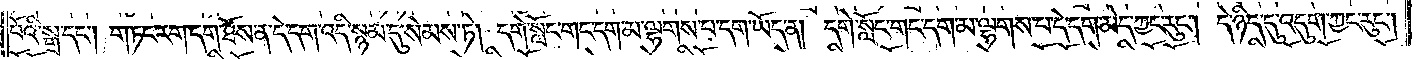པོའི་སྒྲ་དང༌། གཏང་རག་དག་ཐོས་ན་དེ་དག་འདི་སྙམ་དུ་སེམས་ཏེ། དགེ་སློང་གང་དག་མ་ལྷགས་པ་དག་ཡོད་ན། དགེ་སློང་གང་དག་མ་ལྷགས་པ་དེ་དག་མེད་ཀྱང་རུང༌། དེ་ཉིད་དུ་འདུག་ཀྱང་རུང༌།
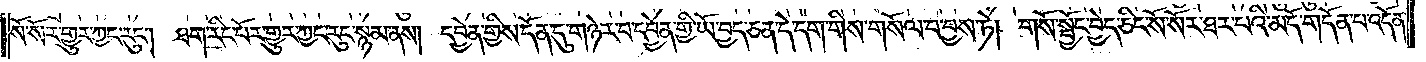སོ་སོར་གྱུར་ཀྱང་རུང༌། ཐག་རིང་པོར་གྱུར་ཀྱང་རུང་སྙམ་ནས། དབྱེན་གྱིས་དོན་དུ་གཉེར་བ་དབྱེན་གྱི་ཡོ་བྱད་ཅན་དེ་དག་གིས་གསོལ་བ་བྱས་ཏེ། གསོ་སྦྱོང་བྱེད་ཅིང་སོ་སོར་ཐར་པའི་མདོ་གདོན་པ་འདོན་
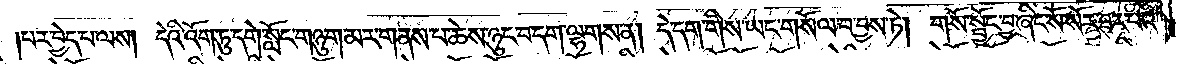པར་བྱེད་པ་ལས། དེའི་འོག་ཏུ་དགེ་སློང་གཉུག་མར་གནས་པ་ཆེས་ཉུང་བ་དག་ལྷགས་ན། དེ་དག་གིས་ཡང་གསོལ་བ་བྱས་ཏེ། གསོ་སྦྱོང་བྱ་ཞིང་སོ་སོར་ཐར་པའི་
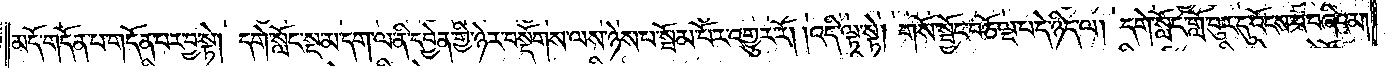མདོ་གདོན་པ་གདོན་པར་བྱ་སྟེ། དགེ་སློང་སྔ་མ་དག་ལ་ནི་དབྱེན་གྱི་ཉེར་བསྡོགས་ལས་ཉེས་པ་སྦོམ་པོར་འགྱུར་རོ། །འདི་ལྟ་སྟེ། གསོ་སྦྱོང་བཅོ་ལྔ་པ་དེ་ཉིད་ལ། དགེ་སློང་གློ་བུར་དུ་འོངས་པ་བཞིའམ།
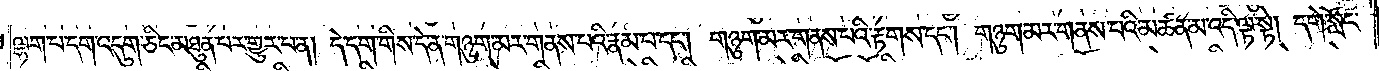ལྷག་པ་དག་འདུག་ཅིང་མཐུན་པར་གྱུར་པ་ན། དེ་དག་གིས་དེ་ན་གཉུག་མར་གནས་པའི་རྣམ་པ་དང༌། གཉུག་མར་གནས་པའི་རྟགས་དང༌། གཉུག་མར་གནས་པའི་མཚན་མ་འདི་ལྟ་སྟེ། དགེ་སློང་
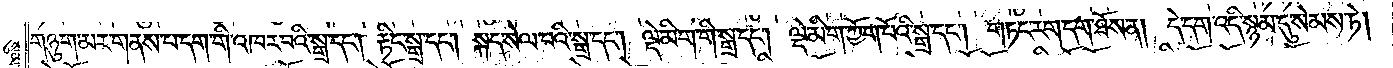གཉུག་མར་གནས་པ་དག་གི་འཁར་བའི་སྒྲ་དང༌། རྟིང་སྒྲ་དང༌། སྐད་སེལ་བའི་སྒྲ་དང༌། ལྡེ་མིག་གི་སྒྲ་དང༌། ལྡེ་མིག་ཀྱོག་པོའི་སྒྲ་དང༌། གཏང་རག་དག་ཐོས་ན། དེ་དག་འདི་སྙམ་དུ་སེམས་ཏེ།
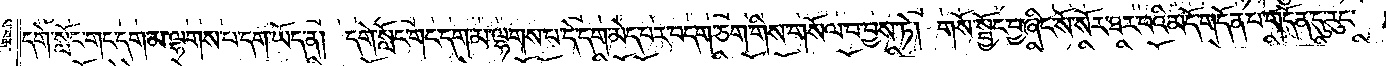དགེ་སློང་གང་དག་མ་ལྷགས་པ་དག་ཡོད་ན། དགེ་སློང་གང་དག་མ་ལྷགས་པ་དེ་དག་མེད་པར་བདག་ཅག་གིས་གསོལ་བ་བྱས་ཏེ། གསོ་སྦྱོང་བྱ་ཞིང་སོ་སོར་ཐར་པའི་མདོ་གདོན་པ་གདོན་དུ་རུང་
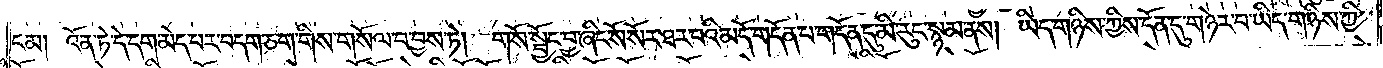ངམ། འོན་ཏེ་དེ་དག་མེད་པར་བདག་ཅག་གིས་གསོལ་བ་བྱས་ཏེ། གསོ་སྦྱོང་བྱ་ཞིང་སོ་སོར་ཐར་པའི་མདོ་གདོན་པ་གདོན་དུ་མི་རུང་སྙམ་ནས། ཡིད་གཉིས་ཀྱིས་དོན་དུ་གཉེར་བ་ཡིད་གཉིས་ཀྱི་
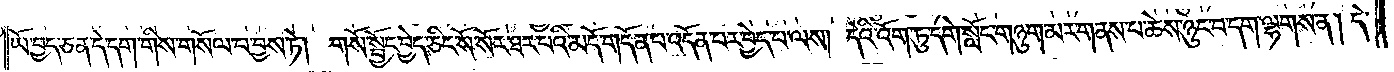ཡོ་བྱད་ཅན་དེ་དག་གིས་གསོལ་བ་བྱས་ཏེ། གསོ་སྦྱོང་བྱེད་ཅིང་སོ་སོར་ཐར་པའི་མདོ་གདོན་པ་འདོན་པར་བྱེད་པ་ལས། དེའི་འོག་ཏུ་དགེ་སློང་གཉུག་མར་གནས་པ་ཆེས་ཉུང་བ་དག་ལྷགས་ན། དེ་
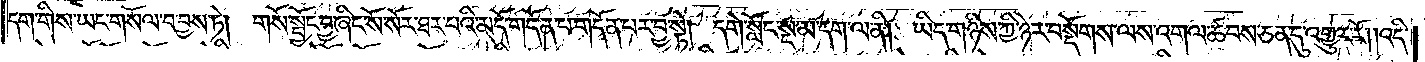དག་གིས་ཡང་གསོལ་བ་བྱས་ཏེ། གསོ་སྦྱོང་བྱ་ཞིང་སོ་སོར་ཐར་པའི་མདོ་གདོན་པ་གདོན་པར་བྱ་སྟེ། དགེ་སློང་སྔ་མ་དག་ལ་ནི། ཡིད་གཉིས་ཀྱི་ཉེར་བསྡོགས་ལས་འགལ་ཚབས་ཅན་དུ་འགྱུར་རོ། །འདི་
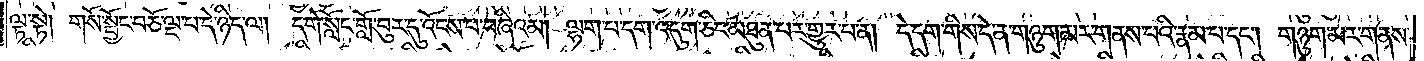ལྟ་སྟེ། གསོ་སྦྱོང་བཅོ་ལྔ་པ་དེ་ཉིད་ལ། དགེ་སློང་གློ་བུར་དུ་འོངས་པ་བཞིའམ། ལྷག་པ་དག་འདུག་ཅིང་མཐུན་པར་གྱུར་པ་ན། དེ་དག་གིས་དེ་ན་གཉུག་མར་གནས་པའི་རྣམ་པ་དང༌། གཉུག་མར་གནས་
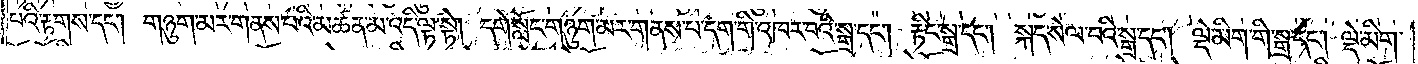པའི་རྟགས་དང༌། གཉུག་མར་གནས་པའི་མཚན་མ་འདི་ལྟ་སྟེ། དགེ་སློང་གཉུག་མར་གནས་པ་དག་གི་འཁར་བའི་སྒྲ་དང༌། རྟིང་སྒྲ་དང༌། སྐད་སེལ་བའི་སྒྲ་དང༌། ལྡེ་མིག་གི་སྒྲ་དང༌། ལྡེ་མིག་
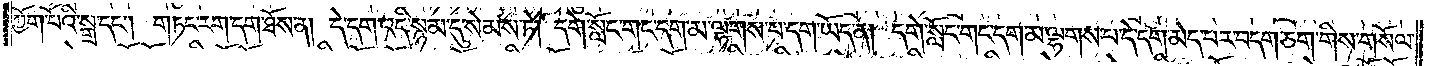ཀྱོག་པོའི་སྒྲ་དང༌། གཏང་རག་དག་ཐོས་ན། དེ་དག་འདི་སྙམ་དུ་སེམས་ཏེ། དགེ་སློང་གང་དག་མ་ལྷགས་པ་དག་ཡོད་ན། དགེ་སློང་གང་དག་མ་ལྷགས་པ་དེ་དག་མེད་པར་བདག་ཅག་གིས་གསོལ་
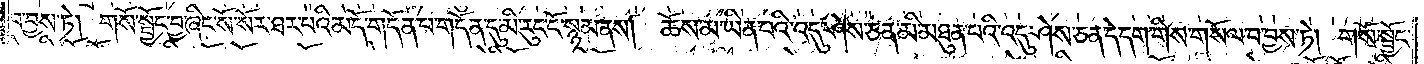བ་བྱས་ཏེ། གསོ་སྦྱོང་བྱ་ཞིང་སོ་སོར་ཐར་པའི་མདོ་གདོན་པ་གདོན་དུ་མི་རུང་ངོ་སྙམ་ནས། ཆོས་མ་ཡིན་པའི་འདུ་ཤེས་ཅན་མི་མཐུན་པའི་འདུ་ཤེས་ཅན་དེ་དག་གིས་གསོལ་བ་བྱས་ཏེ། གསོ་སྦྱོང་
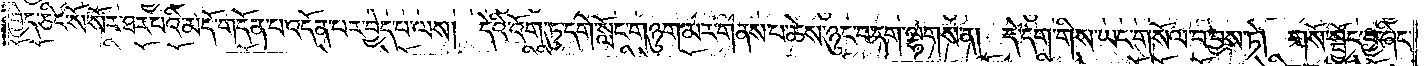བྱེད་ཅིང་སོ་སོར་ཐར་པའི་མདོ་གདོན་པ་འདོན་པར་བྱེད་པ་ལས། དེའི་འོག་ཏུ་དགེ་སློང་གཉུག་མར་གནས་པ་ཆེས་ཉུང་བ་དག་ལྷགས་ན། དེ་དག་གིས་ཡང་གསོལ་བ་བྱས་ཏེ། གསོ་སྦྱོང་བྱ་ཞིང་
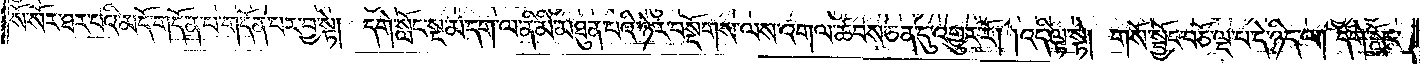སོ་སོར་ཐར་པའི་མདོ་གདོན་པ་གདོན་པར་བྱ་སྟེ། དགེ་སློང་སྔ་མ་དག་ལ་ནི་མི་མཐུན་པའི་ཉེར་བསྡོགས་ལས་འགལ་ཚབས་ཅན་དུ་འགྱུར་རོ། །འདི་ལྟ་སྟེ། གསོ་སྦྱོང་བཅོ་ལྔ་པ་དེ་ཉིད་ལ། དགེ་སློང་
